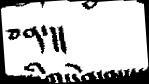ཅན་།།
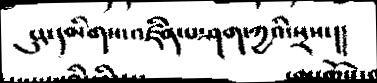ངུར་དམིགས་འཛིན་པ་ཤག་ཀྱའི་སྲས་།།
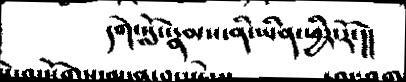དགེ་སློང་རྣམས་ནི་ཡིན་ཕྱིར་རོ་།།
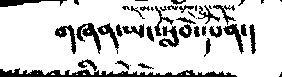གཞན་ཡང་སློབ་དཔོན་།
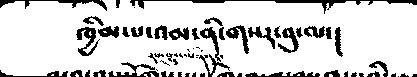ཁྱིམ་པ་འམ་ནི་གསར་བུ་ལ་།
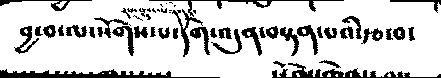བྱ་བ་ལ་སོགས་པ་དགེ་འདུན་བསྟན་པའི་རྩ་བ་
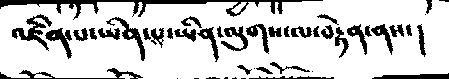འཛིན་པ་ཡིན་པས་ཡིན་ལུགས་ལ་བརྟེན་ནས་།
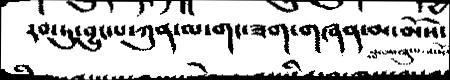རབ་ཏུ་བྱུང་པ་ཀུན་ལ་གང་ཟག་གཞན་མ་མོས་
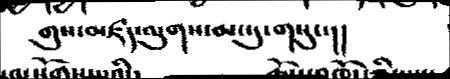གུས་མཛད་ལུགས་མང་དུ་གསུང་།།
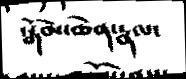སྒོམ་ཆེན་རྣལ་
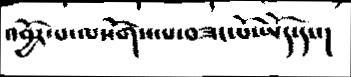འབྱོར་པ་ལསོགས་པ་བཟང་པོ་ཡོད་དང་།
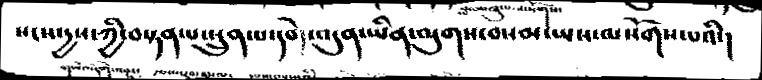སངས་དྱས་ཀྱི་བསྟན་པ་སྲུན་པ་དགེ་འདུན་ཡིན་ལུགས་བསམ་ཡས་ལསོགས་པའི་།
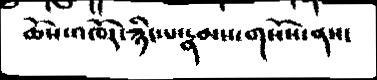ཆོས་འཁོར་རྙིང་པ་རྣམས་གསོས་ནས་
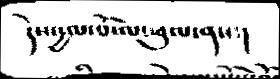དེས་དྱལ་པོ་ལ་ཕུལ་ནས་།
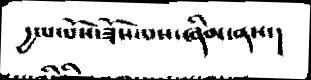དྱལ་པོས་ཟོས་པས་ཞིམ་ནས་།
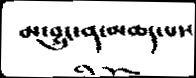མ་བྱུང་ན་མཆད་པས
